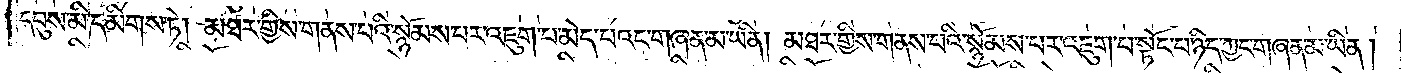དབུས་མི་དམིགས་ཏེ། མཐར་གྱིས་གནས་པའི་སྙོམས་པར་འཇུག་པ་མེད་པའང་གཞན་མ་ཡིན། མཐར་གྱིས་གནས་པའི་སྙོམས་པར་འཇུག་པ་སྟོང་པ་ཉིད་ཀྱང་གཞན་མ་ཡིན།
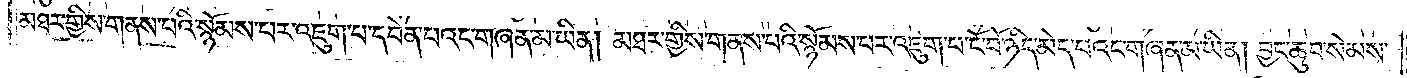མཐར་གྱིས་གནས་པའི་སྙོམས་པར་འཇུག་པ་དབེན་པའང་གཞན་མ་ཡིན། མཐར་གྱིས་གནས་པའི་སྙོམས་པར་འཇུག་པ་ངོ་བོ་ཉིད་མེད་པའང་གཞན་མ་ཡིན། བྱང་ཆུབ་སེམས་
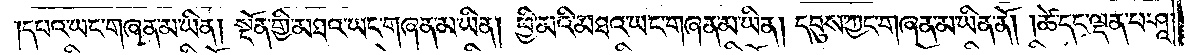དཔའ་ཡང་གཞན་མ་ཡིན། སྔོན་གྱི་མཐའ་ཡང་གཞན་མ་ཡིན། ཕྱི་མའི་མཐའ་ཡང་གཞན་མ་ཡིན། དབུས་ཀྱང་གཞན་མ་ཡིན་ནོ། །ཚེ་དང་ལྡན་པ་ཤཱ་
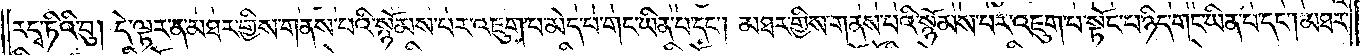རདྭ་ཏིའི་བུ། དེ་ལྟར་ན་མཐར་གྱིས་གནས་པའི་སྙོམས་པར་འཇུག་པ་མེད་པ་གང་ཡིན་པ་དང༌། མཐར་གྱིས་གནས་པའི་སྙོམས་པར་འཇུག་པ་སྟོང་པ་ཉིད་གང་ཡིན་པ་དང༌། མཐར་
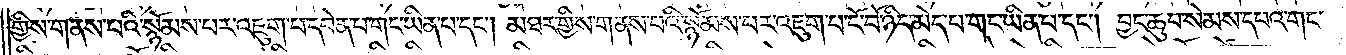གྱིས་གནས་པའི་སྙོམས་པར་འཇུག་པ་དབེན་པ་གང་ཡིན་པ་དང༌། ། མཐར་གྱིས་གནས་པའི་སྙོམས་པར་འཇུག་པ་ངོ་བོ་ཉིད་མེད་པ་གང་ཡིན་པ་དང༌། བྱང་ཆུབ་སེམས་དཔའ་གང་
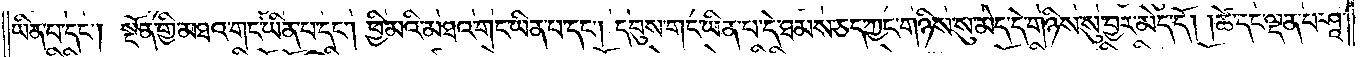ཡིན་པ་དང༌། སྔོན་གྱི་མཐའ་གང་ཡིན་པ་དང༌། ཕྱི་མའི་མཐའ་གང་ཡིན་པ་དང༌། དབུས་གང་ཡིན་པ་དེ་ཐམས་ཅད་ཀྱང་གཉིས་སུ་མེད་དེ་གཉིས་སུ་བྱར་མེད་དོ། །ཚེ་དང་ལྡན་པ་ཤཱ་
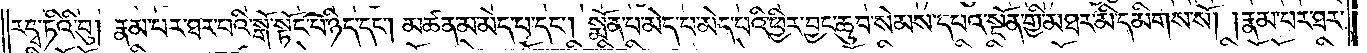རདྭ་ཏིའི་བུ། རྣམ་པར་ཐར་པའི་སྒོ་སྟོང་པ་ཉིད་དང༌། མཚན་མ་མེད་པ་དང༌། སྨོན་པ་མེད་པ་མེད་པའི་ཕྱིར་བྱང་ཆུབ་སེམས་དཔའ་སྔོན་གྱི་མཐར་མི་དམིགས་སོ། །རྣམ་པར་ཐར་
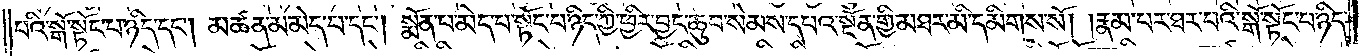པའི་སྒོ་སྟོང་པ་ཉིད་དང༌། མཚན་མ་མེད་པ་དང༌། སྨོན་པ་མེད་པ་སྟོང་པ་ཉིད་ཀྱི་ཕྱིར་བྱང་ཆུབ་སེམས་དཔའ་སྔོན་གྱི་མཐར་མི་དམིགས་སོ། །རྣམ་པར་ཐར་པའི་སྒོ་སྟོང་པ་ཉིད་
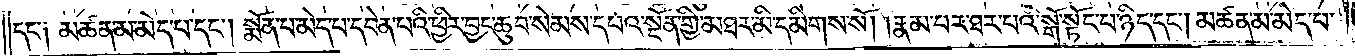དང་༑ མཚན་མ་མེད་པ་དང༌། སྨོན་པ་མེད་པ་དབེན་པའི་ཕྱིར་བྱང་ཆུབ་སེམས་དཔའ་སྔོན་གྱི་མཐར་མི་དམིགས་སོ། །རྣམ་པར་ཐར་པའི་སྒོ་སྟོང་པ་ཉིད་དང༌། མཚན་མ་མེད་པ་
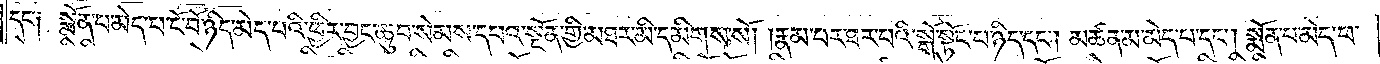དང་༑ སྨོན་པ་མེད་པ་ངོ་བོ་ཉིད་མེད་པའི་ཕྱིར་བྱང་ཆུབ་སེམས་དཔའ་སྔོན་གྱི་མཐར་མི་དམིགས་སོ། །རྣམ་པར་ཐར་པའི་སྒོ་སྟོང་པ་ཉིད་དང༌། མཚན་མ་མེད་པ་དང༌། སྨོན་པ་མེད་པ་
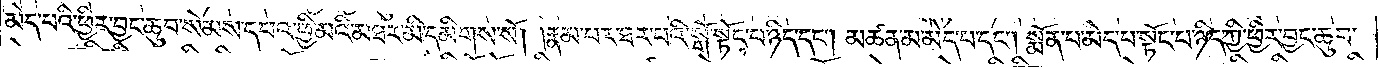མེད་པའི་ཕྱིར་བྱང་ཆུབ་སེམས་དཔའ་ཕྱི་མའི་མཐར་མི་དམིགས་སོ། །རྣམ་པར་ཐར་པའི་སྒོ་སྟོང་པ་ཉིད་དང༌། མཚན་མ་མེད་པ་དང༌། སྨོན་པ་མེད་པ་སྟོང་པ་ཉིད་ཀྱི་ཕྱིར་བྱང་ཆུབ་
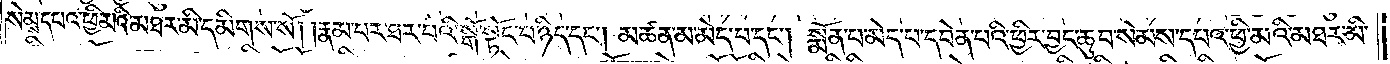སེམས་དཔའ་ཕྱི་མའི་མཐར་མི་དམིགས་སོ། །རྣམ་པར་ཐར་པའི་སྒོ་སྟོང་པ་ཉིད་དང༌། མཚན་མ་མེད་པ་དང༌། སྨོན་པ་མེད་པ་དབེན་པའི་ཕྱིར་བྱང་ཆུབ་སེམས་དཔའ་ཕྱི་མའི་མཐར་མི་
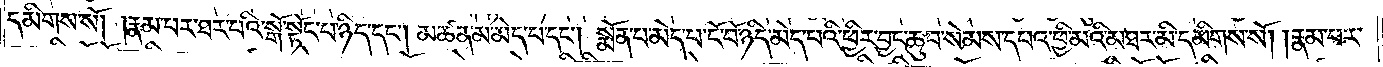དམིགས་སོ། །རྣམ་པར་ཐར་པའི་སྒོ་སྟོང་པ་ཉིད་དང༌། མཚན་མ་མེད་པ་དང༌། སྨོན་པ་མེད་པ་ངོ་བོ་ཉིད་མེད་པའི་ཕྱིར་བྱང་ཆུབ་སེམས་དཔའ་ཕྱི་མའི་མཐར་མི་དམིགས་སོ། །རྣམ་པར་
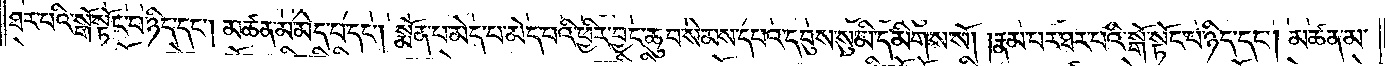ཐར་པའི་སྒོ་སྟོང་པ་ཉིད་དང༌། མཚན་མ་མེད་པ་དང༌། སྨོན་པ་མེད་པ་མེད་པའི་ཕྱིར་བྱང་ཆུབ་སེམས་དཔའ་དབུས་སུ་མི་དམིགས་སོ། །རྣམ་པར་ཐར་པའི་སྒོ་སྟོང་པ་ཉིད་དང༌། མཚན་མ་
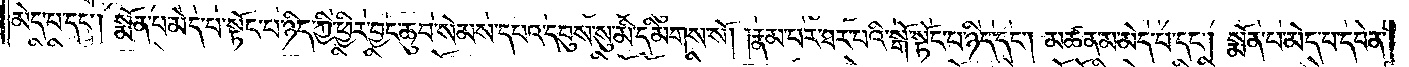མེད་པ་དང༌། སྨོན་པ་མེད་པ་སྟོང་པ་ཉིད་ཀྱི་ཕྱིར་བྱང་ཆུབ་སེམས་དཔའ་དབུས་སུ་མི་དམིགས་སོ། །རྣམ་པར་ཐར་པའི་སྒོ་སྟོང་པ་ཉིད་དང༌། མཚན་མ་མེད་པ་དང༌། སྨོན་པ་མེད་པ་དབེན་
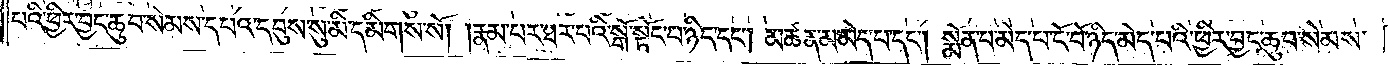པའི་ཕྱིར་བྱང་ཆུབ་སེམས་དཔའ་དབུས་སུ་མི་དམིགས་སོ། །རྣམ་པར་ཐར་པའི་སྒོ་སྟོང་པ་ཉིད་དང༌། མཚན་མ་མེད་པ་དང༌། སྨོན་པ་མེད་པ་ངོ་བོ་ཉིད་མེད་པའི་ཕྱིར་བྱང་ཆུབ་སེམས་
